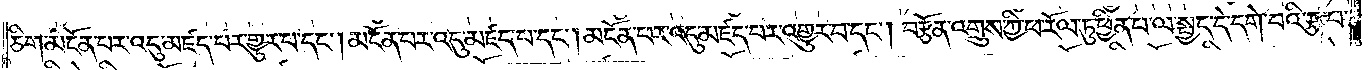ཅིག་མངོན་པར་འདུ་མཛད་པར་གྱུར་བ་དང༌། མངོན་པར་འདུ་མཛད་པ་དང༌། མངོན་པར་འདུ་མཛད་པར་འགྱུར་པ་དང༌། བརྩོན་འགྲུས་ཀྱི་ཕ་རོལ་ཏུ་ཕྱིན་པ་ལ་སྤྱད་དེ་དགེ་བའི་རྩ་བ་
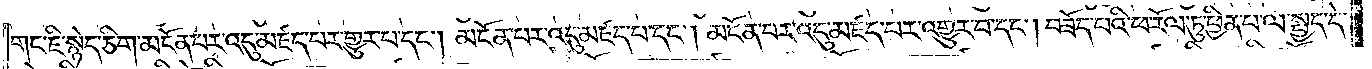གང་ཇི་སྙེད་ཅིག་མངོན་པར་འདུ་མཛད་པར་གྱུར་པ་དང༌། མངོན་པར་འདུ་མཛད་པ་དང༌། མངོན་པར་འདུ་མཛད་པར་འགྱུར་བ་དང༌། བཟོད་པའི་ཕ་རོལ་ཏུ་ཕྱིན་པ་ལ་སྤྱད་དེ་
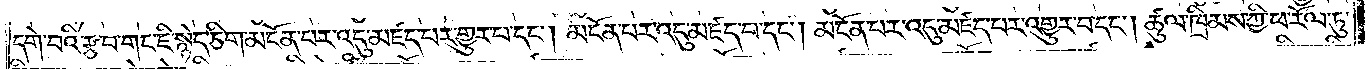དགེ་བའི་རྩ་བ་གང་ཇི་སྙེད་ཅིག་མངོན་པར་འདུ་མཛད་པར་གྱུར་པ་དང༌། མངོན་པར་འདུ་མཛད་པ་དང༌། མངོན་པར་འདུ་མཛད་པར་འགྱུར་བ་དང༌། ཚུལ་ཁྲིམས་ཀྱི་ཕ་རོལ་ཏུ་
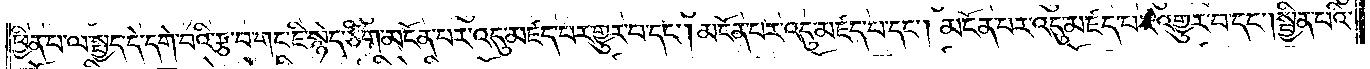ཕྱིན་པ་ལ་སྤྱད་དེ་དགེ་བའི་རྩ་བ་གང་ཇི་སྙེད་ཅིག་མངོན་པར་འདུ་མཛད་པར་གྱུར་པ་དང༌། མངོན་པར་འདུ་མཛད་པ་དང༌། མངོན་པར་འདུ་མཛད་པར་འགྱུར་བ་དང༌། སྦྱིན་པའི་
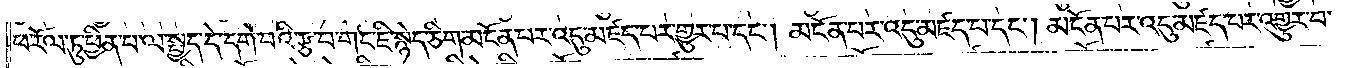ཕ་རོལ་ཏུ་ཕྱིན་པ་ལ་སྤྱད་དེ་དགེ་བའི་རྩ་བ་གང་ཇི་སྙེད་ཅིག་མངོན་པར་འདུ་མཛད་པར་གྱུར་པ་དང༌། མངོན་པར་འདུ་མཛད་པ་དང༌། མངོན་པར་འདུ་མཛད་པར་འགྱུར་བ་
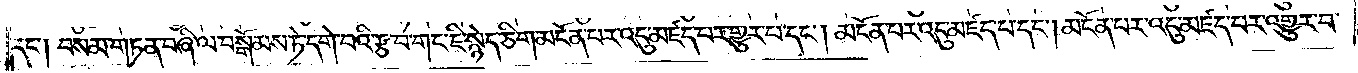དང༌། བསམ་གཏན་བཞི་ལ་བསྒོམས་ཏེ་དགེ་བའི་རྩ་བ་གང་ཇི་སྙེད་ཅིག་མངོན་པར་འདུ་མཛད་པར་གྱུར་པ་དང༌། མངོན་པར་འདུ་མཛད་པ་དང༌། མངོན་པར་འདུ་མཛད་པར་འགྱུར་བ་
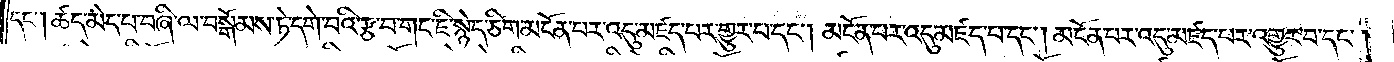དང༌། ཚད་མེད་པ་བཞི་ལ་བསྒོམས་ཏེ་དགེ་བའི་རྩ་བ་གང་ཇི་སྙེད་ཅིག་མངོན་པར་འདུ་མཛད་པར་གྱུར་པ་དང༌། མངོན་པར་འདུ་མཛད་པ་དང༌། མངོན་པར་འདུ་མཛད་པར་འགྱུར་བ་དང༌།
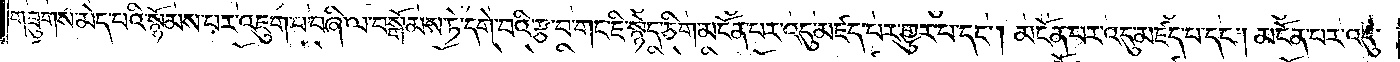གཟུགས་མེད་པའི་སྙོམས་པར་འཇུག་པ་བཞི་ལ་བསྒོམས་ཏེ་དགེ་བའི་རྩ་བ་གང་ཇི་སྙེད་ཅིག་མངོན་པར་འདུ་མཛད་པར་གྱུར་པ་དང༌། མངོན་པར་འདུ་མཛད་པ་དང༌། མངོན་པར་འདུ་
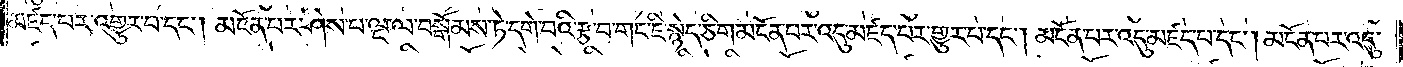མཛད་པར་འགྱུར་བ་དང༌། མངོན་པར་ཤེས་པ་ལྔ་ལ་བསྒོམས་ཏེ་དགེ་བའི་རྩ་བ་གང་ཇི་སྙེད་ཅིག་མངོན་པར་འདུ་མཛད་པར་གྱུར་པ་དང༌། མངོན་པར་འདུ་མཛད་པ་དང༌། མངོན་པར་འདུ་
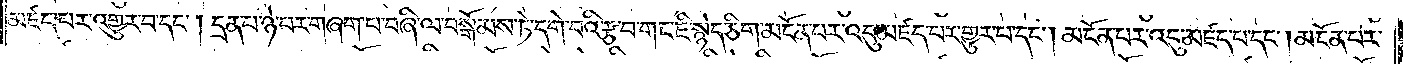མཛད་པར་འགྱུར་བ་དང༌། དྲན་པ་ཉེ་བར་གཞག་པ་བཞི་ལ་བསྒོམས་ཏེ་དགེ་བའི་རྩ་བ་གང་ཇི་སྙེད་ཅིག་མངོན་པར་འདུ་མཛད་པར་གྱུར་པ་དང༌། མངོན་པར་འདུ་མཛད་པ་དང༌། མངོན་པར་
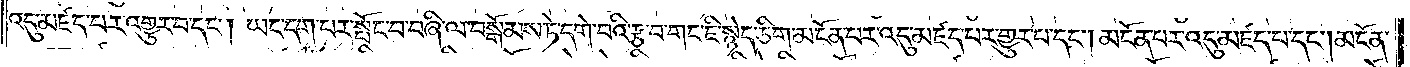འདུ་མཛད་པར་འགྱུར་བ་དང༌། ཡང་དག་པར་སྤོང་བ་བཞི་ལ་བསྒོམས་ཏེ་དགེ་བའི་རྩ་བ་གང་ཇི་སྙེད་ཅིག་མངོན་པར་འདུ་མཛད་པར་གྱུར་པ་དང༌། མངོན་པར་འདུ་མཛད་པ་དང༌། མངོན་
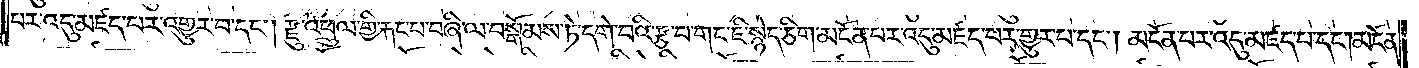པར་འདུ་མཛད་པར་འགྱུར་བ་དང༌། རྫུ་འཕྲུལ་གྱི་རྐང་པ་བཞི་ལ་བསྒོམས་ཏེ་དགེ་བའི་རྩ་བ་གང་ཇི་སྙེད་ཅིག་མངོན་པར་འདུ་མཛད་པར་གྱུར་པ་དང༌། མངོན་པར་འདུ་མཛད་པ་དང༌། མངོན་
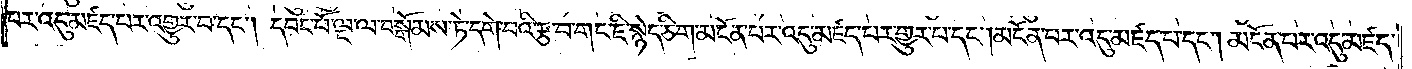པར་འདུ་མཛད་པར་འགྱུར་བ་དང༌། དབང་པོ་ལྔ་ལ་བསྒོམས་ཏེ་དགེ་བའི་རྩ་བ་གང་ཇི་སྙེད་ཅིག་མངོན་པར་འདུ་མཛད་པར་གྱུར་པ་དང༌། མངོན་པར་འདུ་མཛད་པ་དང༌། མངོན་པར་འདུ་མཛད་
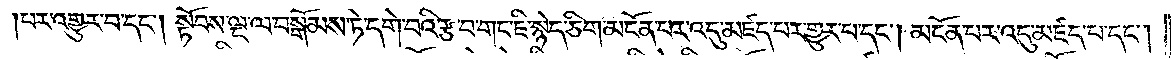པར་འགྱུར་བ་དང༌། སྟོབས་ལྔ་ལ་བསྒོམས་ཏེ་དགེ་བའི་རྩ་བ་གང་ཇི་སྙེད་ཅིག་མངོན་པར་འདུ་མཛད་པར་གྱུར་པ་དང༌། མངོན་པར་འདུ་མཛད་པ་དང༌།
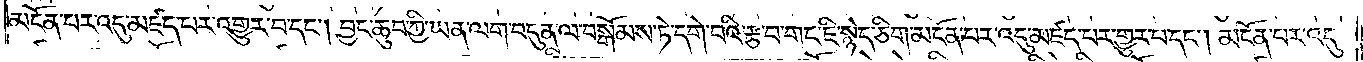མངོན་པར་འདུ་མཛད་པར་འགྱུར་པ་དང༌། བྱང་ཆུབ་ཀྱི་ཡན་ལག་བདུན་ལ་བསྒོམས་ཏེ་དགེ་བའི་རྩ་བ་གང་ཇི་སྙེད་ཅིག་མངོན་པར་འདུ་མཛད་པར་གྱུར་པ་དང༌། མངོན་པར་འདུ་
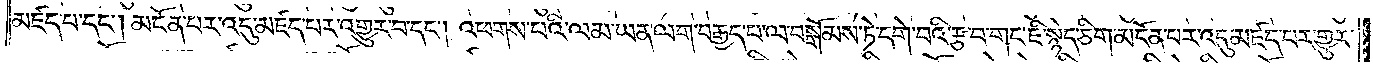མཛད་པ་དང༌། མངོན་པར་འདུ་མཛད་པར་འགྱུར་བ་དང༌། འཕགས་པའི་ལམ་ཡན་ལག་བརྒྱད་པ་ལ་བསྒོམས་ཏེ་དགེ་བའི་རྩ་བ་གང་ཇི་སྙེད་ཅིག་མངོན་པར་འདུ་མཛད་པར་གྱུར་
